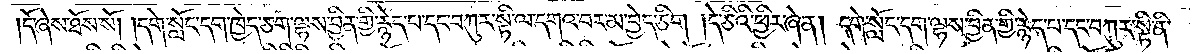།དོ་ཞེས་ཐོས་སོ། །དགེ་སློང་དག་ཁྱེད་ཅག་ལྷས་བྱིན་གྱི་རྙེད་པ་དང་བཀུར་སྟི་ལ་དགའ་བར་མ་བྱེད་ཅིག །དེ་ཅིའི་ཕྱིར་ཞེ་ན། དགེ་སློང་དག་ལྷས་བྱིན་གྱི་རྙེད་པ་དང་བཀུར་སྟི་ནི་
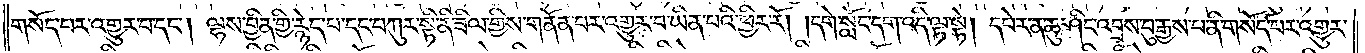གསོད་པར་འགྱུར་བ་དང༌། ལྷས་བྱིན་གྱི་རྙེད་པ་དང་བཀུར་སྟི་ནི་ཟིལ་གྱིས་གནོན་པར་འགྱུར་བ་ཡིན་པའི་ཕྱིར་རོ། །དགེ་སློང་དག་འདི་ལྟ་སྟེ། དཔེར་ན་ཆུ་ཤིང་འབྲས་བུ་རྒྱས་པ་ནི་གསོད་པར་འགྱུར་
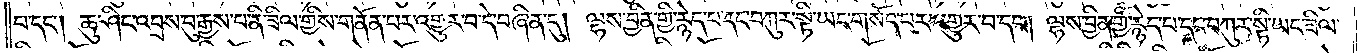བ་དང༌། ཆུ་ཤིང་འབྲས་བུ་རྒྱས་པ་ནི་ཟིལ་གྱིས་གནོན་པར་འགྱུར་བ་དེ་བཞིན་དུ། ལྷས་བྱིན་གྱི་རྙེད་པ་དང་བཀུར་སྟི་ཡང་གསོད་པར་འགྱུར་བ་དང༌། ལྷས་བྱིན་གྱི་རྙེད་པ་དང་བཀུར་སྟི་ཡང་ཟིལ་
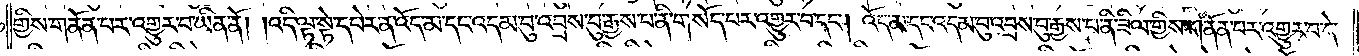གྱིས་གནོན་པར་འགྱུར་བ་ཡིན་ནོ། །འདི་ལྟ་སྟེ་དཔེར་ན་འོད་མ་དང་འདམ་བུ་འབྲས་བུ་རྒྱས་པ་ནི་གསོད་པར་འགྱུར་བ་དང༌། འོད་མ་དང་འདམ་བུ་འབྲས་བུ་རྒྱས་པ་ནི་ཟིལ་གྱིས་གནོན་པར་འགྱུར་བ་དེ་
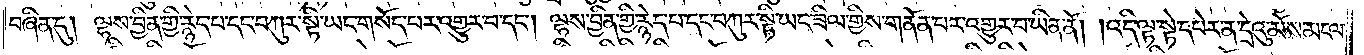བཞིན་དུ། ལྷས་བྱིན་གྱི་རྙེད་པ་དང་བཀུར་སྟི་ཡང་གསོད་པར་འགྱུར་བ་དང༌། ལྷས་བྱིན་གྱི་རྙེད་པ་དང་བཀུར་སྟི་ཡང་ཟིལ་གྱིས་གནོན་པར་འགྱུར་བ་ཡིན་ནོ། །འདི་ལྟ་སྟེ་དཔེར་ན་དྲེའུ་མོས་མངལ་
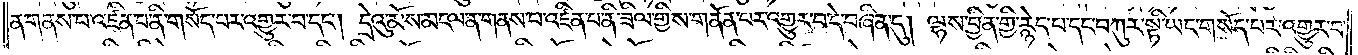ན་གནས་པ་འཛིན་པ་ནི་གསོད་པར་འགྱུར་བ་དང༌། དྲེའུ་མོས་མངལ་ན་གནས་པ་འཛིན་པ་ནི་ཟིལ་གྱིས་གནོན་པར་འགྱུར་བ་དེ་བཞིན་དུ། ལྷས་བྱིན་གྱི་རྙེད་པ་དང་བཀུར་སྟི་ཡང་གསོད་པར་འགྱུར་བ་
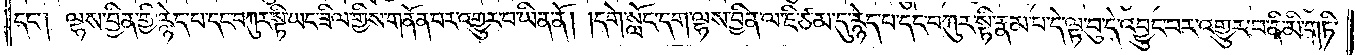དང༌། ལྷས་བྱིན་གྱི་རྙེད་པ་དང་བཀུར་སྟི་ཡང་ཟིལ་གྱིས་གནོན་པར་འགྱུར་བ་ཡིན་ནོ། །དགེ་སློང་དག་ལྷས་བྱིན་ལ་ཇི་ཙམ་དུ་རྙེད་པ་དང་བཀུར་སྟི་རྣམ་པ་དེ་ལྟ་བུ་དེ་འབྱུང་བར་འགྱུར་བ་ནི་མི་གཏི་
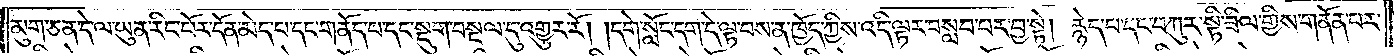མུག་ཅན་དེ་ལ་ཡུན་རིང་པོར་དོན་མེད་པ་དང་གནོད་པ་དང་སྡུག་བསྔལ་དུ་འགྱུར་རོ། །དགེ་སློང་དག་དེ་ལྟ་བས་ན་ཁྱོད་ཀྱིས་འདི་ལྟར་བསླབ་པར་བྱ་སྟེ། རྙེད་པ་དང་བཀུར་སྟི་ཟིལ་གྱིས་གནོན་པར་
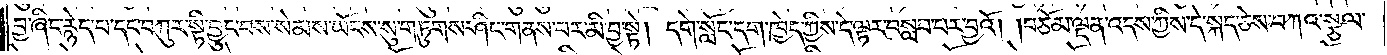བྱ་ཞིང་རྙེད་པ་དང་བཀུར་སྟི་བྱུང་བས་སེམས་ཡོངས་སུ་གཏུགས་ཤིང་གནས་པར་མི་བྱ་སྟེ། དགེ་སློང་དག་ཁྱེད་ཀྱིས་དེ་ལྟར་བསླབ་པར་བྱའོ། །བཅོམ་ལྡན་འདས་ཀྱིས་དེ་སྐད་ཅེས་བཀའ་སྩལ་
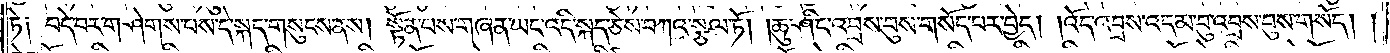ཏེ༑ བདེ་བར་གཤེགས་པས་དེ་སྐད་གསུངས་ནས། སྟོན་པས་གཞན་ཡང་འདི་སྐད་ཅེས་བཀའ་སྩལ་ཏོ། །ཆུ་ཤིང་འབྲས་བུས་གསོད་པར་བྱེད། །འོད་འབྲས་འདམ་བུ་འབྲས་བུས་གསོད། །
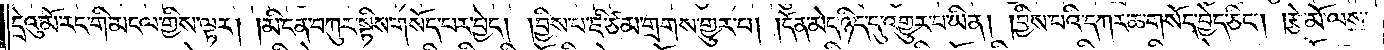དྲེའུ་མོ་རང་གི་མངལ་གྱིས་ལྟར། །མི་ངན་བཀུར་སྟིས་གསོད་པར་བྱེད། །བྱིས་པ་ཇི་ཙམ་གྲགས་གྱུར་པ། །དོན་མེད་ཉིད་དུ་འགྱུར་པ་ཡིན། །བྱིས་པའི་དཀར་ཆ་གསོད་བྱེད་ཅིང༌། །རྩེ་མོ་ལས་
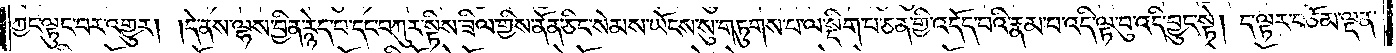ཀྱང་ལྟུང་བར་འགྱུར། །དེ་ནས་ལྷས་བྱིན་རྙེད་པ་དང་བཀུར་སྟིས་ཟིལ་གྱིས་ནོན་ཅིང་སེམས་ཡོངས་སུ་གཏུགས་པ་ལ་སྡིག་པ་ཅན་གྱི་འདོད་པའི་རྣམ་པ་འདི་ལྟ་བུ་འདི་བྱུང་སྟེ། ད་ལྟར་བཅོམ་ལྡན་
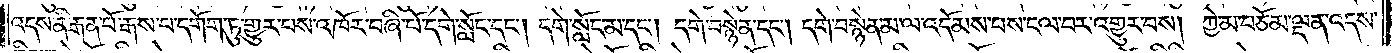འདས་ནི་རྒན་པོ་རྒས་པ་དགོག་ཏུ་གྱུར་པས་འཁོར་བཞི་པོ་དགེ་སློང་དང༌། དགེ་སློང་མ་དང༌། དགེ་བསྙེན་དང༌། དགེ་བསྙེན་མ་ལ་འདོམས་པས་ངལ་བར་འགྱུར་བས། ཀྱེ་མ་བཅོམ་ལྡན་འདས་
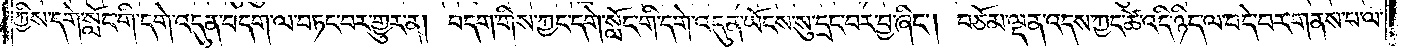ཀྱིས་དགེ་སློང་གི་དགེ་འདུན་བདག་ལ་བཏང་བར་གྱུར་ན། བདག་གིས་ཀྱང་དགེ་སློང་གི་དགེ་འདུན་ཡོངས་སུ་དྲང་བར་བྱ་ཞིང༌། བཅོམ་ལྡན་འདས་ཀྱང་ཚེ་འདི་ཉིད་ལ་བདེ་བར་གནས་པ་ལ་
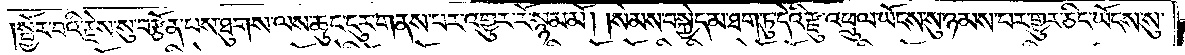སྦྱོར་བའི་རྗེས་སུ་བརྩོན་པས་ཐུགས་ལས་ཆུང་ངུར་གནས་པར་འགྱུར་རོ་སྙམ་མོ། །སེམས་བསྐྱེད་མ་ཐག་ཏུ་དེའི་རྫུ་འཕྲུལ་ཡོངས་སུ་ཉམས་པར་གྱུར་ཅིང་ཡོངས་སུ་
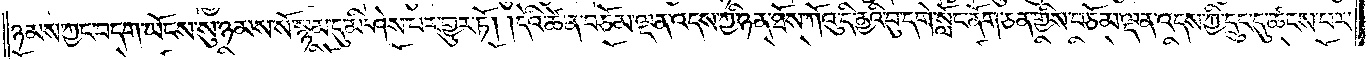ཉམས་ཀྱང་བདག་ཡོངས་སུ་ཉམས་སོ་སྙམ་དུ་མི་ཤེས་པར་གྱུར་ཏོ། །དེའི་ཚེ་ན་བཅོམ་ལྡན་འདས་ཀྱི་ཉན་ཐོས་ཀོའུ་འདི་ནྱའི་བུ་དགེ་སློང་ནོག་ཅན་གྱིས་བཅོམ་ལྡན་འདས་ཀྱི་དྲུང་དུ་ཚངས་པར་
